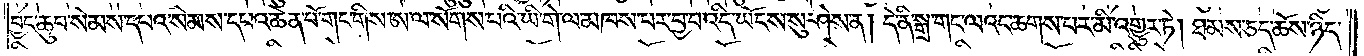བྱང་ཆུབ་སེམས་དཔའ་སེམས་དཔའ་ཆེན་པོ་གང་གིས་ཨ་ལ་སོགས་པའི་ཡི་གེ་ལ་མཁས་པར་བྱ་བ་འདི་ཡོངས་སུ་ཤེས་ན། དེ་ནི་སྒྲ་གང་ལའང་ཆགས་པར་མི་འགྱུར་ཏེ། ཐམས་ཅད་ཆོས་ཉིད་
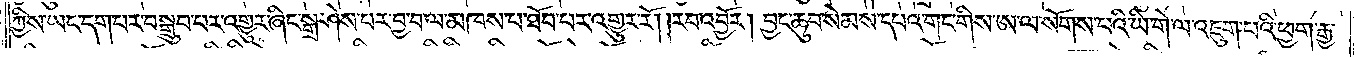ཀྱིས་ཡང་དག་པར་བསྒྲུབ་པར་འགྱུར་ཞིང་སྒྲ་ཤེས་པར་བྱ་བ་ལ་མཁས་པ་ཐོབ་པར་འགྱུར་རོ། །རབ་འབྱོར། བྱང་ཆུབ་སེམས་དཔའ་གང་གིས་ཨ་ལ་སོགས་པའི་ཡི་གེ་ལ་འཇུག་པའི་ཕྱག་རྒྱ་
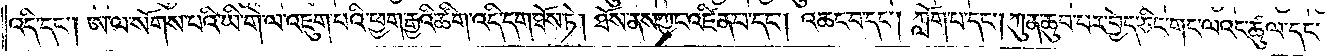འདི་དང༌། ཨ་ལ་སོགས་པའི་ཡི་གེ་ལ་འཇུག་པའི་ཕྱག་རྒྱའི་ཚིག་འདི་དག་ཐོས་ཏེ། ཐོས་ནས་ཀྱང་འཛིན་པ་དང༌། འཆང་བ་དང༌། ཀློག་པ་དང༌། ཀུན་ཆུབ་པར་བྱེད་ཅིང་གཞན་ལའང་ཚུལ་དང་
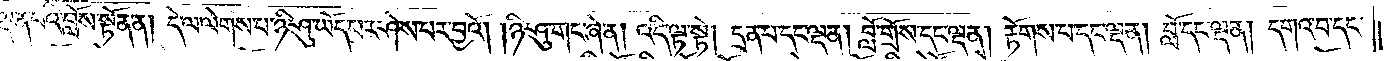ལྡན་པའི་བློས་སྟོན་ན། དེ་ལ་ལེགས་པ་ཉི་ཤུ་ཡོད་པར་ཤེས་པར་བྱའོ། །ཉི་ཤུ་གང་ཞེ་ན། འདི་ལྟ་སྟེ། དྲན་པ་དང་ལྡན། བློ་གྲོས་དང་ལྡན། རྟོགས་པ་དང་ལྡན། བློ་དང་ལྡན། དགའ་བ་དང་
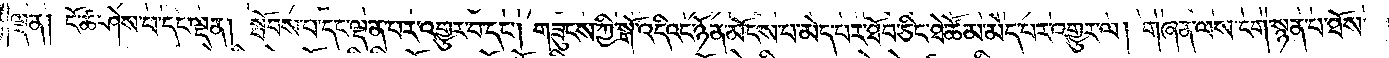ལྡན། ངོ་ཚ་ཤེས་པ་དང་ལྡན། སྤོབས་པ་དང་ལྡན་པར་འགྱུར་བ་དང༌། གཟུངས་ཀྱི་སྒོ་འདིའང་ཉོན་མོངས་པ་མེད་པར་ཐོབ་ཅིང་ཐེ་ཚོམ་མེད་པར་འགྱུར་ལ། གཞན་ལས་ངག་སྙན་པ་ཐོས་
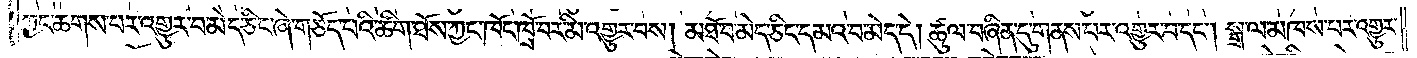ཀྱང་ཆགས་པར་འགྱུར་བ་མེད་ཅིང་ཞེ་གཅོད་པའི་ཚིག་ཐོས་ཀྱང་ཁོང་ཁྲོ་བར་མི་འགྱུར་བས། མཐོ་བ་མེད་ཅིང་དམའ་བ་མེད་དེ། ཚུལ་བཞིན་དུ་གནས་པར་འགྱུར་བ་དང༌། སྒྲ་ལ་མཁས་པར་འགྱུར་
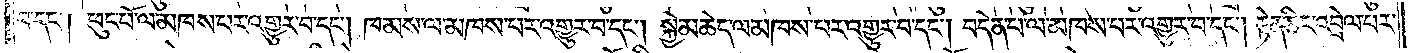བ་དང༌། ཕུང་པོ་ལ་མཁས་པར་འགྱུར་བ་དང༌། ཁམས་ལ་མཁས་པར་འགྱུར་བ་དང༌། སྐྱེ་མཆེད་ལ་མཁས་པར་འགྱུར་བ་དང༌། བདེན་པ་ལ་མཁས་པར་འགྱུར་བ་དང༌། རྟེན་ཅིང་འབྲེལ་བར་
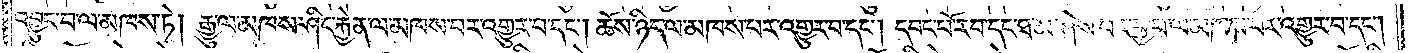འབྱུང་བ་ལ་མཁས་ཏེ། རྒྱུ་ལ་མཁས་ཤིང་རྐྱེན་ལ་མཁས་པར་འགྱུར་བ་དང༌། ཆོས་ཉིད་ལ་མཁས་པར་འགྱུར་བ་དང༌། དབང་པོ་རབ་དང་ཐ་མ་ཤེས་པར་བྱ་བ་ལ་མཁས་པར་འགྱུར་བ་དང༌།
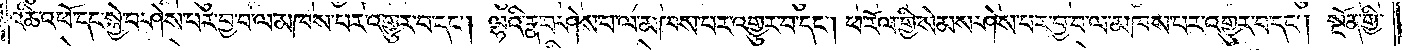འཆི་འཕོ་དང་སྐྱེ་བ་ཤེས་པར་བྱ་བ་ལ་མཁས་པར་འགྱུར་བ་དང༌། ལྷའི་རྣ་བ་ཤེས་པ་ལ་མཁས་པར་འགྱུར་བ་དང༌། ཕ་རོལ་གྱི་སེམས་ཤེས་པར་བྱ་བ་ལ་མཁས་པར་འགྱུར་བ་དང༌། སྔོན་གྱི་
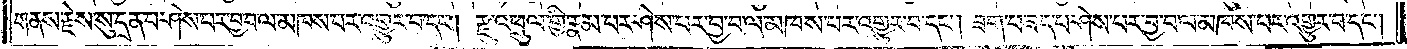གནས་རྗེས་སུ་དྲན་པ་ཤེས་པར་བྱ་བ་ལ་མཁས་པར་འགྱུར་བ་དང༌། རྫུ་འཕྲུལ་གྱི་རྣམ་པར་ཤེས་པར་བྱ་བ་ལ་མཁས་པར་འགྱུར་བ་དང༌། ཟག་པ་ཟད་པ་ཤེས་པར་བྱ་བ་ལ་མཁས་པར་འགྱུར་བ་དང༌།
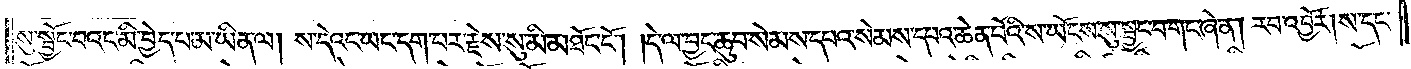སུ་སྦྱོང་བའང་མི་བྱེད་པ་མ་ཡིན་ལ། ས་དེའང་ཡང་དག་པར་རྗེས་སུ་མི་མཐོང་ངོ༌། །དེ་ལ་བྱང་ཆུབ་སེམས་དཔའ་སེམས་དཔའ་ཆེན་པོའི་ས་ཡོངས་སུ་སྦྱང་བ་གང་ཞེ་ན། རབ་འབྱོར། ས་དང་
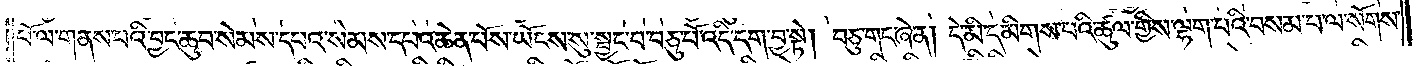པོ་ལ་གནས་པའི་བྱང་ཆུབ་སེམས་དཔའ་སེམས་དཔའ་ཆེན་པོས་ཡོངས་སུ་སྦྱོང་བ་བཅུ་པོ་འདི་དག་བྱ་སྟེ། བཅུ་གང་ཞེ་ན། དེ་མི་དམིགས་པའི་ཚུལ་གྱིས་ལྷག་པའི་བསམ་པ་ལ་སོགས་
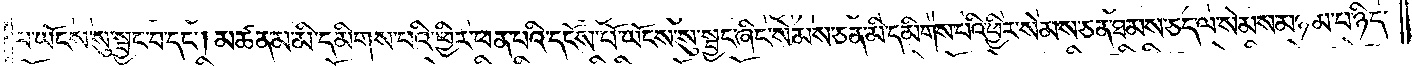པ་ཡོངས་སུ་སྦྱང་བ་དང༌། མཚན་མ་མི་དམིགས་པའི་ཕྱིར་ཕན་པའི་དངོས་པོ་ཡོངས་སུ་སྦྱང་ཞིང་སེམས་ཅན་མི་དམིགས་པའི་ཕྱིར་སེམས་ཅན་ཐམས་ཅད་ལ་སེམས་མཉམ་པ་ཉིད་
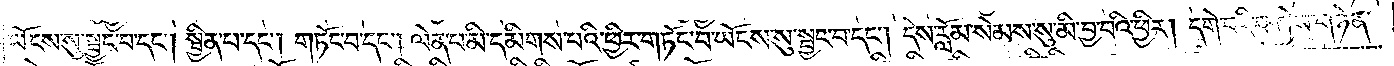ཡོངས་སུ་སྦྱང་བ་དང༌། སྦྱིན་པ་དང༌། གཏོང་བ་དང༌། ལེན་པ་མི་དམིགས་པའི་ཕྱིར་གཏོང་བ་ཡོངས་སུ་སྦྱང་བ་དང༌། དེས་རློམ་སེམས་སུ་མི་བྱ་བའི་ཕྱིར། དགེ་བའི་བཤེས་གཉེན་
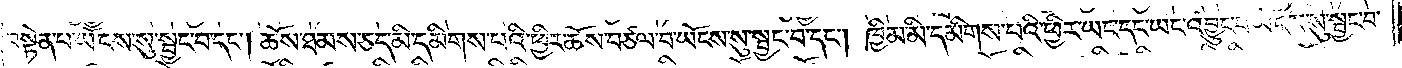བསྟེན་པ་ཡོངས་སུ་སྦྱང་བ་དང༌། ཆོས་ཐམས་ཅད་མི་དམིགས་པའི་ཕྱིར་ཆོས་བཙལ་བ་ཡོངས་སུ་སྦྱང་བ་དང༌། ཁྱིམ་མི་དམིགས་པའི་ཕྱིར་ཡང་དང་ཡང་འབྱུང་བ་ཡོངས་སུ་སྦྱང་བ་
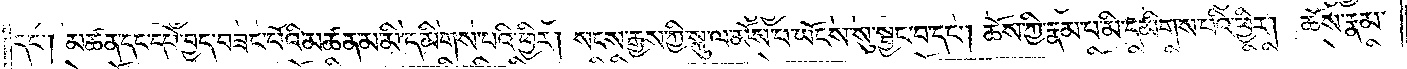དང༌། མཚན་དང་དཔེ་བྱད་བཟང་པོའི་མཚན་མ་མི་དམིགས་པའི་ཕྱིར། སངས་རྒྱས་ཀྱི་སྐུ་ལ་མོས་པ་ཡོངས་སུ་སྤྱད་པ་དང༌། ཆོས་ཀྱི་རྣམ་པ་མི་དམིགས་པའི་ཕྱིར། ཆོས་རྣམ་
